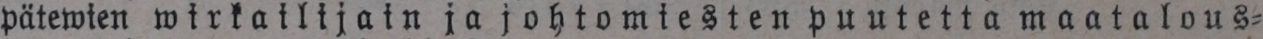pätewien wirkailijain ja johtomiesten puutetta maatalous-
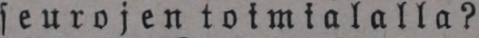seurojen toimialalla?
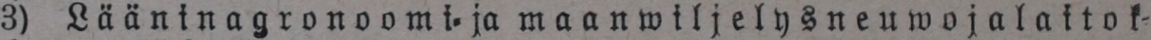3) Lääninagronoomi- ja maanwiljelysneuwojalaitok-
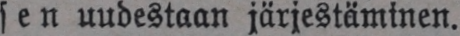sen uudestaan järjestäminen.
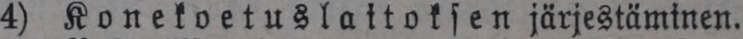4) Konekoetuslaitoksen järjestäminen.
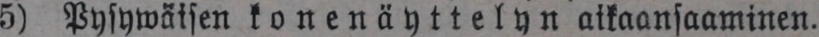5) Pysywäisen konenäyttelyn aikaansaaminen.
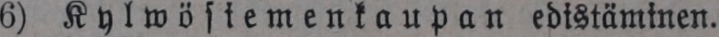6) Kylwösiemenkaupan edistäminen.
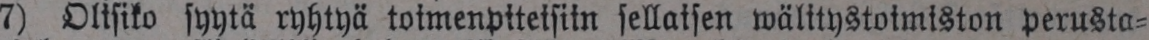7) Olisiko syytä ryhtyä toimenpiteisiin sellaisen wälitystoimiston perusta-
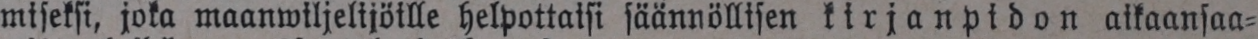miseksi, joka maanwiljelijöille helpottaisi säännöllisen kirjanpidon aikaansaa-
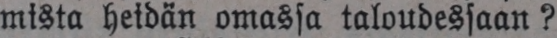mista heidän omassa taloudessaan?
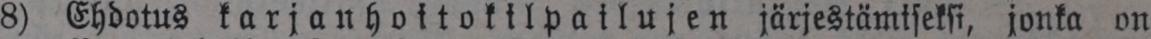8) Ehdotus karjanhoitokilpailujen järjestämiseksi, jonka on
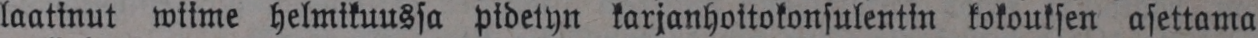laatinut wiime helmikuussa pidetyn karjanhoitokonsulentin kokouksen asettama
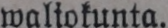waltokunta.
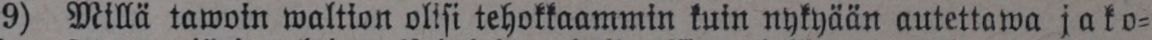9) Millä tawoin waltion olisi tehokkaammin tuin nykyään autettawa jako-
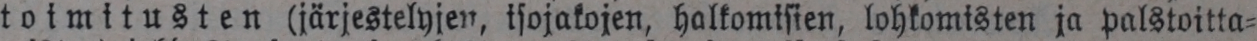toimitusten (järjestelyjen, isojakojen, halkomisien, lohkomisten ja palstoitta-
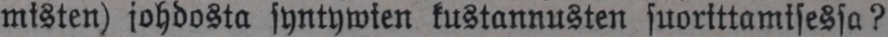misten) johdosta syntywien kustannusten suorittamisessa?
